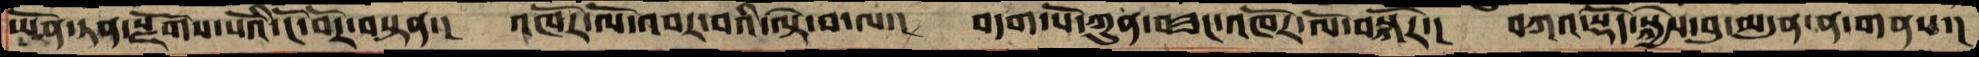ཡོན་ཏན་སྫོགས་པོའི་ངོ་བོར་བསྟན་།  འཁོར་ལོ་འབར་བའི་ལྟེ་བ་ལ་།  བདག་པོ་ཀུན་བཟང་འཁོར་ལོ་བསྐོར་།  བཀའ་སྡོད་སྐྱེས་བུ་མདུན་ན་གནས་།
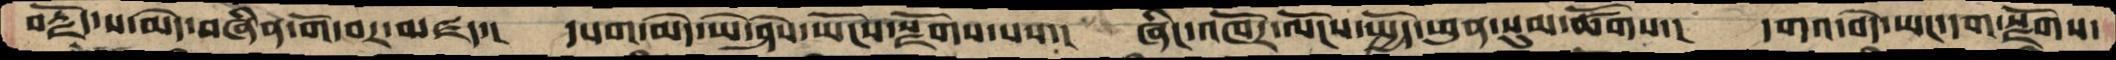བརྗོད་པ་མེད་བཞིན་གོ་བར་མཛད་།  དཔག་མེད་ཡེ་ཤེས་ཡོངས་སྫོགས་པས་།  ཞིང་འཁོར་ལོངས་སྤྱོད་ཕུན་སུམ་ཚོགས་།  དགའ་བདེ་ཡང་དག་སྫོགས་
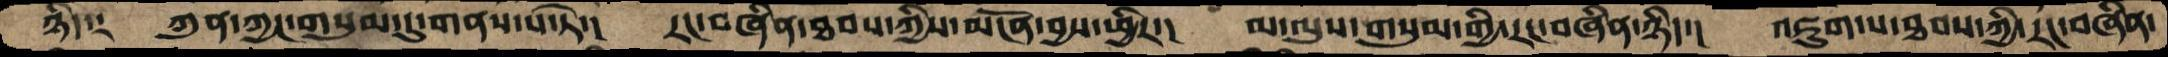ཉིད༑   ཀུན་ཀྱང་གསུམ་དུ་གནས་པ་ཏེ་།  རང་བཞིན་ཐབས་ཀྱིས་མངོན་བྱས་ཕྱིར་།  མ་ལུས་གསུམ་གྱི་རང་བཞིན་ཉིད་།  འཇུག་པ་ཐབས་ཀྱི་རང་བཞིན་
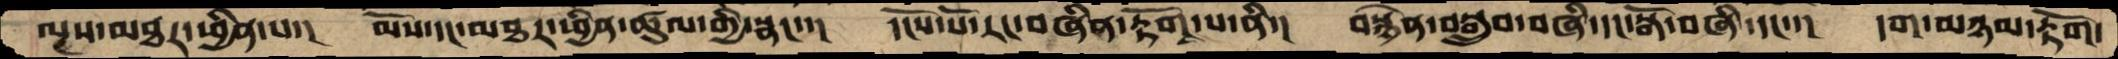ལས་མཐར་ཕྱིན་པ་།  མོས་དང་ཐར་ཕྱིན་ཚུལ་གྱི་སྣང་་།  དངོས་པོ་རང་བཞིན་རྟོག་པ་ནི་།  བསྙེན་བསྒྲུབ་བཞི་དང་སྒོ་བཞི་དང་་།  དག་མཉམ་རྟོག་
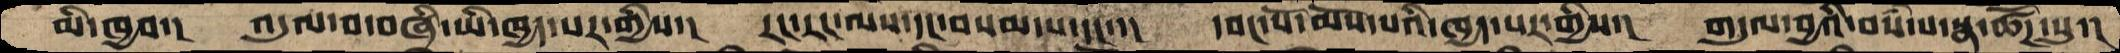མི་ཁྱབ་།  འདུལ་བ་བཞི་ཡི་ཁྱད་པར་གྱིས་།  རང་རང་ལས་དང་བསམ་པ་དང་་།  དབང་པོ་མོས་པའི་ཁྱད་པར་གྱིས་།  གདུལ་བྱའི་བསཾ་པ་སྣ་ཚོཌ་སུ་།
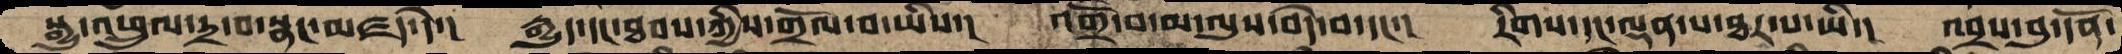སྒྱུ་འཕྲུལ་དྲ་བ་སྣང་མཛད་དེ་།  རྒྱུད་དང་ཐབས་ཀྱིས་གྲོལ་བ་ཡིས་།  འགྲོ་བ་མ་ལུས་བདེ་བ་དང་།  རིགས་དང་ལྡན་པ་ཐར་པ་ཡི་།  འབྲས་བུ་དོན་
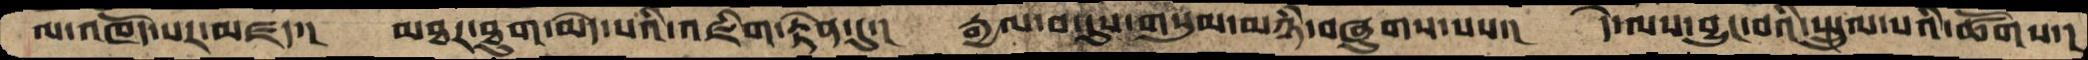ལ་འཁོད་པར་མཛད་།  མཐར་ཐུག་མེད་པའི་འཇིག་རྟེན་དུ་།  རྒྱལ་བ་དུས་གསུམ་མཉཾ་བཞུགས་པས་།  དེ་ལས་བྱུང་བའི་སྤྲུལ་པའི་ཚོགས་།
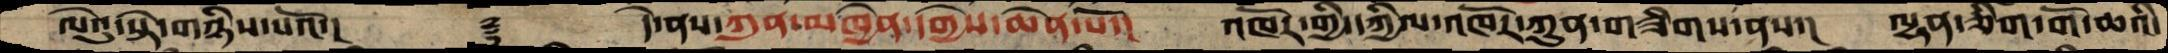ལེའུ་སྟེ་གཉིས་པའོ་།    ࿑    དེ་ནས་ཀུན་མཁྱེན་དགྱེས་ཆེན་པོ་།  འཁོར་གྱི་དཀྱིལ་འཁོར་ཀུན་གཟིགས་ནས་།  ལྷན་ཅིག་གོ་ཆའི་
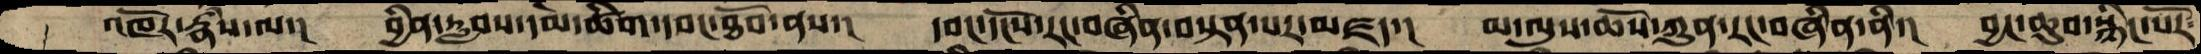འཁོར་རྣཾས་ལ་།  བྱིན་རླབས་དམ་ཚིག་དབང་ཐོབ་ནས་།  དབང་དངོས་རང་བཞིན་བསྟན་པར་མཛད་།  མ་ལུས་ཆོས་ཀུན་རང་བཞིན་ནི་།  བྱང་ཆུབ་སྙིང་པོར་
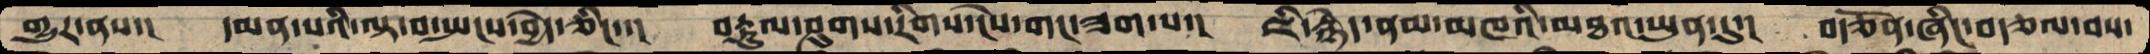གྱུར་ནས་།  དམན་པའི་ལྟ་བ་སྤངས་བྱེད་ཅིང་་།  བརྟུལ་ཤུགས་རིགས་ངེས་གང་ཟག་པ་།  ཇི་རྙེད་ནམ་མཁའི་མཐའ་ཡུན་དུ་།  བརྩོན་ཞིང་བརྩལ་བས་
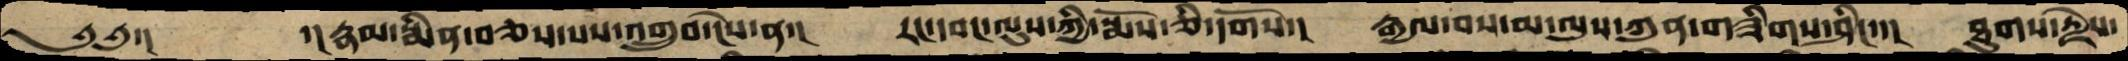༄༅་།      ་།རྣམ་སྨིན་བཅས་པས་འགྲུབ་ངེས་ན་།  རང་དབང་ལུས་ཀྱི་སྨོས་ཅི་དགོས་།  རྒྱལ་བས་མ་ལུས་ཀུན་གཟིགས་ཤིང་་།  ཐུགས་རྗེས་
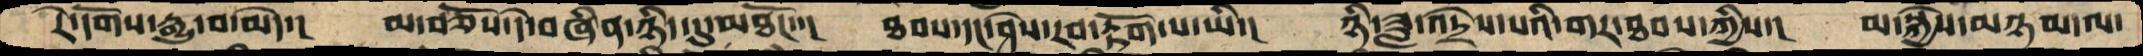རེ་དོགས་རྒྱུ་བ་མེད་།  མ་བཅོས་དེ་བཞིན་ཉིད་དུ་མཐོང་་།  ཐབས་དང་ཤེས་རབ་རྟོག་པ་ཡི་།  ཉི་ཟླ་འདྲེས་པའི་གར་ཐབས་ཀྱིས་།  མ་སྐྱེས་མཉམ་ལ་
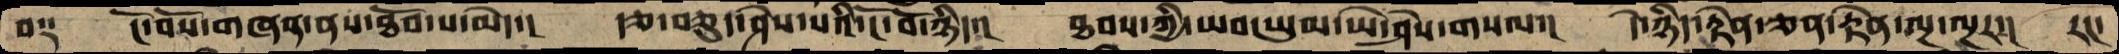བ༑  ངོ་བོས་གཞན་ནས་ཐོབ་པ་མེད་།  རྩ་བཅུད་ཤེས་པའི་ངོ་བོ་ཉིད་།  ཐབས་ཀྱི་ཡབ་ཡུམ་ཡེ་ཤེས་གསལ་།  དེ་ཉིད་རྟེན་ཅན་རྟེན་ལྔ་ལྔར་།  རང་
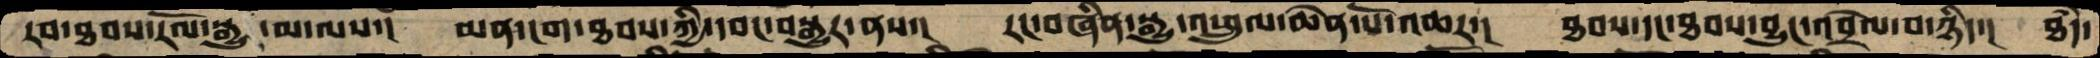རབ་ཐབས་རོལ་སྒྱུ ་མ་ལས་། མན་ངག་ཐབས་ཀྱི་དབང་བསྒྱུར་ནས་།  རང་བཞིན་སྒྱུ་འཕྲུལ་ཆེན་པོ་འཆར་།  ཐབས་དང་ཐབས་བྱུང་འབྲེས་བ་ཉིད་།  ཐཾད་
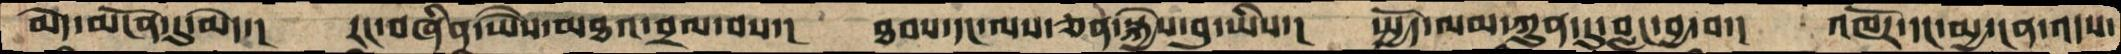མེད་མངོན་དུ་མེད་།  རང་བཞིན་ཡཻས་མཐའ་བྲལ་བས་།  ཐབས་དང་ལས་ཅན་སྐྱེས་བུ་ཡིས་།  སྤྱོད་ལམ་ཀུན་དུ་བླང་བྱ་བ་།  འཁོར་དང་མྱ་ངན་འདས་
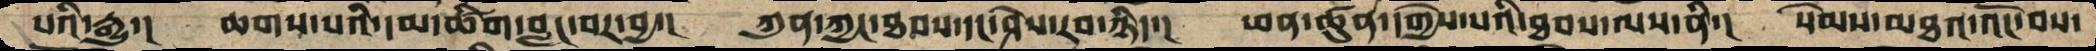པའི་རྒྱུ་།  ཆགས་པའི་དམ་ཚིག་བླང་བར་བྱ་།  ཀུན་ཀྱང་ཐབས་དང་ཤེས་རབ་ཉིད་།  ཕན་ཚུན་དགྱེས་པའི་ཐབས་ལས་ནི་།  སེམས་མཐའ་འོང་བས་
